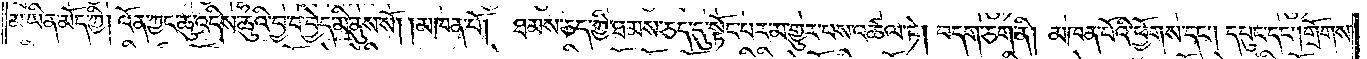མ་ཡིན་མོད་ཀྱི། འོན་ཀྱང་ཆུ་འདིས་ཆུའི་བྱ་བ་བྱེད་མི་ནུས་སོ། །མཁན་པོ། ཐམས་ཅད་ཀྱི་ཐམས་ཅད་དུ་སྟོང་པར་མ་གྱུར་པས་འཚལ་ཏེ། བདག་ཅག་ནི། མཁན་པོའི་ཕྱོགས་དང༌། དཔུང་དང༌། གྲོགས་
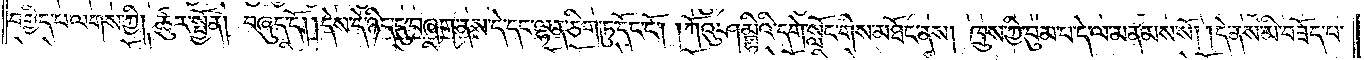བགྱིད་པ་ལགས་ཀྱི། ཚུར་སྤྱོན། བཞུད་དོ། །དེས་དེ་ཉིད་དུ་བཞག་ནས་དེ་དང་ལྷན་ཅིག་ཏུ་དོང་ངོ༌། །ཀོའུ་ཤམྦྷིའི་དགེ་སློང་གིས་མཐོང་ནས། ཁྲུས་ཀྱི་བུམ་པ་དེ་ལ་མནམས་སོ། །དེ་ནས་མི་བཟོད་པ་
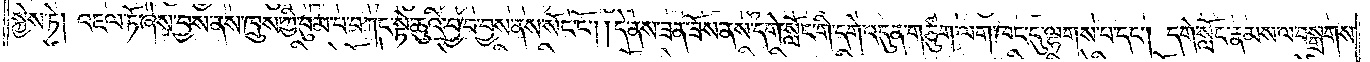སྐྱེས་ཏེ། འཇལ་ཏོ་ཞེས་བྱས་ནས་ཁྲུས་ཀྱི་བུམ་པ་བཀང་སྟེ་ཆུའི་བྱ་བ་བྱས་ནས་སོང་ངོ༌། །དེ་ནས་ཟན་ཟོས་ནས་དགེ་སློང་གི་དགེ་འདུན་གཙུག་ལག་ཁང་དུ་ལྷགས་པ་དང༌། དགེ་སློང་རྣམས་ལ་བསྒྲགས་
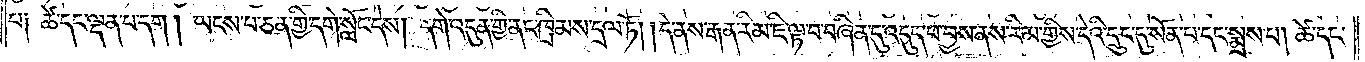པ༑ ཚེ་དང་ལྡན་པ་དག། ཡངས་པ་ཅན་གྱི་དགེ་སློང་དེས། དགེ་འདུན་གྱི་ནང་ཁྲིམས་དྲལ་ཏོ། །དེ་ནས་རྒན་རིམ་ཇི་ལྟ་བ་བཞིན་དུ་འདུད་པ་བྱས་ནས་རིམ་གྱིས་དེའི་དྲུང་དུ་སོན་པ་དང་སྨྲས་པ། ཚེ་དང་
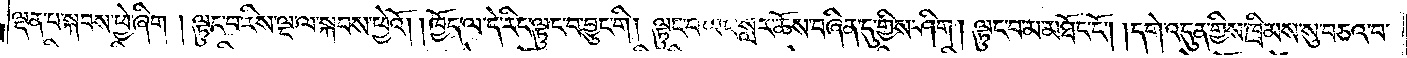ལྡན་པ་སྐབས་ཕྱེ་ཞིག། ལྟུང་བ་རིས་ལྔ་ལ་སྐབས་ཕྱེའོ། །ཁྱོད་ལ་དེ་རིང་ལྟུང་བ་བྱུང་གི། ལྟུང་བ་ཡང་སླར་ཆོས་བཞིན་དུ་གྱིས་ཤིག། ལྟུང་བ་མ་མཐོང་ངོ༌། །དགེ་འདུན་གྱིས་ཁྲིམས་སུ་བཅའ་བ་
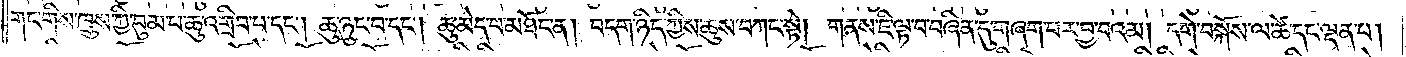གང་གིས་ཁྲུས་ཀྱི་བུམ་པ་ཆུ་འགྲིབ་པ་དང༌། ཆུ་ཉུང་བ་དང༌། ཆུ་མེད་པ་མཐོང་ན། བདག་ཉིད་ཀྱིས་ཆུས་བཀང་སྟེ། གནས་ཇི་ལྟ་བ་བཞིན་དུ་གཞག་པར་བྱ་བའམ། དགེ་བསྐོས་ལ་ཚེ་དང་ལྡན་པ།
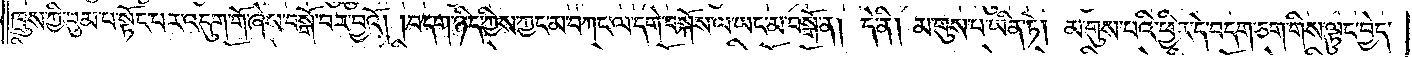ཁྲུས་ཀྱི་བུམ་པ་སྟོང་པར་འདུག་གོ་ཞེས་བསྒོ་བར་བྱའོ། །བདག་ཉིད་ཀྱིས་ཀྱང་མ་བཀང་ལ་དགེ་བསྐོས་ལ་ཡང་མ་བསྒོ་ན། དེ་ནི། མ་གུས་པ་ཡིན་ཏེ། མ་གུས་པའི་ཕྱིར་དེ་བདག་ཅག་གིས་ལྟུང་བྱེད་
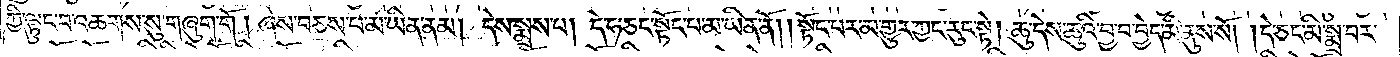ཀྱི་ལྟུང་བ་འཆགས་སུ་གཞུག་གོ། ཞེས་བཅས་པ་མ་ཡིན་ནམ། དེས་སྨྲས་པ། དེ་ཧ་ཅང་སྟོང་པ་མ་ཡིན་ནོ། །སྟོང་པར་མ་གྱུར་ཀྱང་རུང་སྟེ། ཆུ་དེས་ཆུའི་བྱ་བ་བྱེད་མི་ནུས་སོ། །དེ་ཅང་མི་སྨྲ་བར་
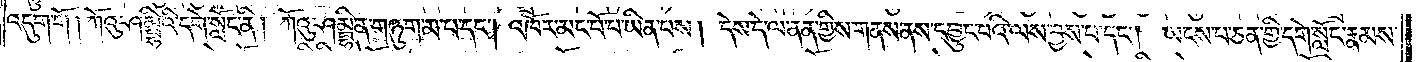འདུག་གོ། ཀོའུ་ཤམྦིའི་དགེ་སློང་ནི། ཀོའུ་ཤམྦྷི་ན་གཉུག་མ་པ་དང༌། འཁོར་མང་པོ་ཡིན་པས། དེས་དེ་ལ་ནན་གྱིས་གནས་ནས་དབྱུང་བའི་ལས་བྱས་པ་དང༌། ཡངས་པ་ཅན་གྱི་དགེ་སློང་རྣམས་
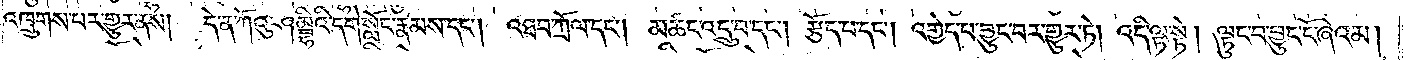འཁྲུགས་པར་གྱུར་ནས། དེ་ན་ཀོའུ་ཤམྦྷིའི་དགེ་སློང་རྣམས་དང༌། འཐབ་ཀྲོལ་དང༌། མཚང་འདྲུ་བ་དང༌། རྩོད་པ་དང༌། འགྱེད་པ་བྱུང་བར་གྱུར་ཏེ། འདི་ལྟ་སྟེ། ལྟུང་བ་བྱུང་ངོ་ཞེའམ།
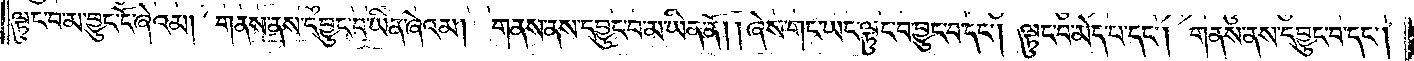ལྟུང་བ་མ་བྱུང་ངོ་ཞེའམ། གནས་ནས་དབྱུང་བ་ཡིན་ཞེའམ། གནས་ནས་དབྱུང་བ་མ་ཡིན་ནོ། །ཞེས་གང་ཡང་ལྟུང་བ་བྱུང་བ་དང༌། ལྟུང་བ་མེད་པ་དང༌། གནས་ནས་དབྱུང་བ་དང༌།
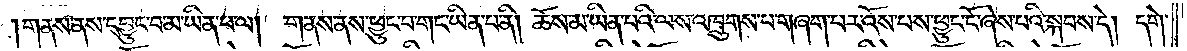།གནས་ནས་དབྱུང་བ་མ་ཡིན་པ་ལ། གནས་ནས་ཕྱུང་བ་གང་ཡིན་པ་ནི། ཆོས་མ་ཡིན་པའི་ལས་འཁྲུགས་པ་གཞག་པར་འོས་པས་ཕྱུང་ངོ་ཞེས་པའི་སྐབས་དེ། དགེ་
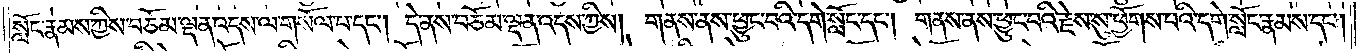སློང་རྣམས་ཀྱིས་བཅོམ་ལྡན་འདས་ལ་གསོལ་པ་དང༌། དེ་ནས་བཅོམ་ལྡན་འདས་ཀྱིས། གནས་ནས་ཕྱུང་བའི་དགེ་སློང་དང༌། གནས་ནས་ཕྱུང་བའི་རྗེས་སུ་ཕྱོགས་པའི་དགེ་སློང་རྣམས་དང༌།
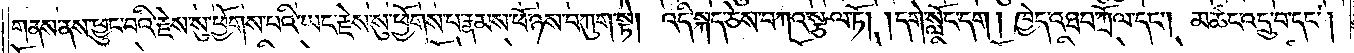གནས་ནས་ཕྱུང་བའི་རྗེས་སུ་ཕྱོགས་པའི་ཡང་རྗེས་སུ་ཕྱོགས་པ་རྣམས་ཕོ་ཉས་བཀུག་སྟེ། འདི་སྐད་ཅེས་བཀའ་སྩལ་ཏོ། །དགེ་སློང་དག །ཁྱེད་འཐབ་ཀྲོལ་དང༌། མཚང་འདྲུ་བ་དང༌།
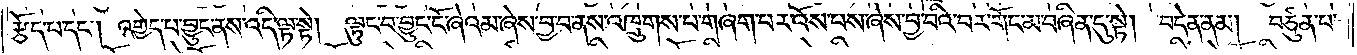རྩོད་པ་དང༌། འགྱེད་པ་བྱུང་ནས་འདི་ལྟ་སྟེ། ལྟུང་བ་བྱུང་ངོ་ཞེའམ་ཞེས་བྱ་བ་ནས་འཁྲུགས་པ་གཞག་པར་འོས་པས་ཞེས་བྱ་བའི་བར་གོང་མ་བཞིན་དུ་སྟེ། བདེན་ནམ། བཙུན་པ་
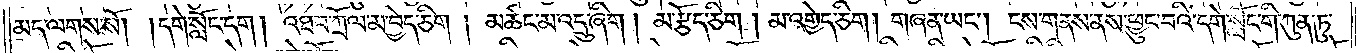མད་ལགས་སོ། །དགེ་སློང་དག །འཐབ་ཀྲོལ་མ་བྱེད་ཅིག །མཚང་མ་འདྲུ་ཞིག །མ་རྩོད་ཅིག །མ་འགྱེད་ཅིག །གཞན་ཡང༌། ངས་གནས་ནས་ཕྱུང་བའི་དགེ་སློང་གི་ཀུན་ཏུ་
